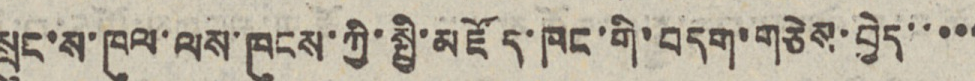སྲུང་ས་ཁུལ་ལས་ཁུངས་ཀྱི་སྤྱི་མཛོད་ཁང་གི་བདག་གཅེས་བྱེད་་་་་
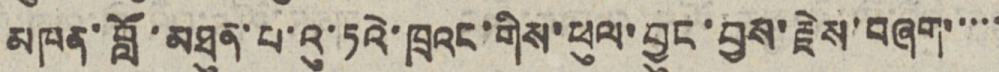མཁན་བློ་མཐུན་པ་འུ་ཏའི་ཁྲའང་གིས་ཕུལ་བྱུང་བྱས་རྗེས་བཞག་་་་་
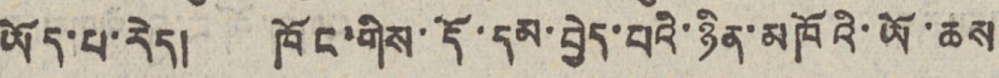ཡོད་པ་རེད། ཁོང་གིས་དོ་དམ་བྱེད་པའི་ཉིན་མཁོའི་ཡོ་ཆས
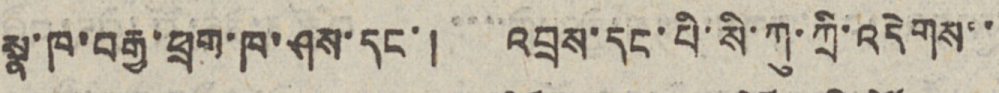སྣ་ཁ་བརྒྱ་ཕྲག་ཁ་ཤས་དང་། འབྲས་དང་པི་སི་ཀུ་ཀྲི་འདེགས་་
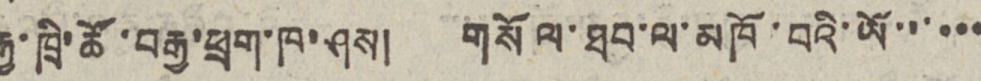རྒྱ་ཁྲི་ཚོ་བརྒྱ་ཕྲག་ཁ་ཤས། གསོལ་ཐབ་ལ་མཁོ་བའི་ཡོ་་་་་་
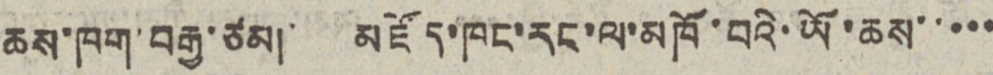ཆས་ཁག་བརྒྱ་ཙམ། མཛོད་ཁང་རང་ལ་མཁོ་བའི་ཡོ་ཆས་་་་་་
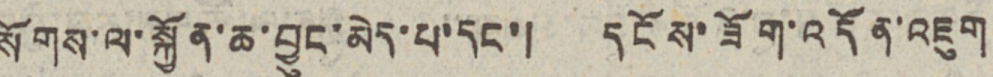སོགས་ལ་སྐྱོན་ཆ་བྱུང་མེད་པ་དང་། དངོས་ཟོག་འདོན་འཇུག
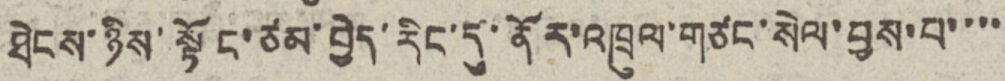ཐེངས་ཉིས་སྟོང་ཙམ་བྱེད་རིང་དུ་ནོར་འཁྲུལ་གཙང་སེལ་བྱས་པ་་་་
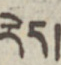རེད།
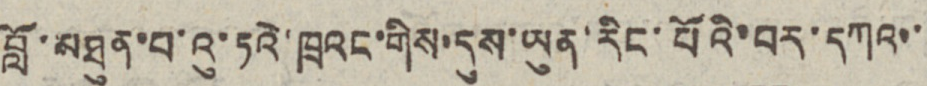བློ་མཐུན་པ་འུ་ཏའེ་ཁྲའང་གིས་དུས་ཡུན་རིང་པོའི་བར་དཀའ་་
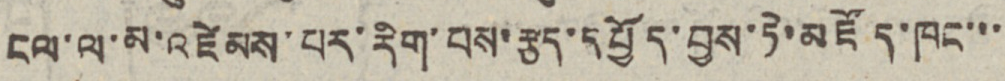ངལ་ལ་མ་འཛེམས་པར་རིག་བས་རྩད་དཔྱོད་བྱས་ཏེ་མཛོད་ཁང་་་
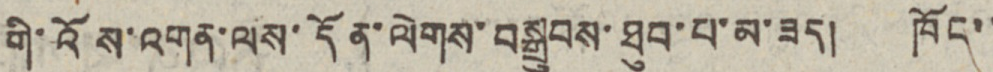གི་འོས་འགན་ལས་དོན་ལེགས་བསྒྲུབས་ཐུབ་པ་མ་ཟད། ཁོང་་
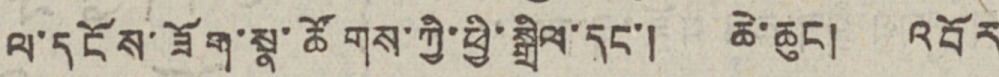ལ་དངོས་ཟོག་སྣ་ཚོགས་ཀྱི་ཕྱི་སྒྲིལ་དང་། ཆེ་ཆུང། འབོར
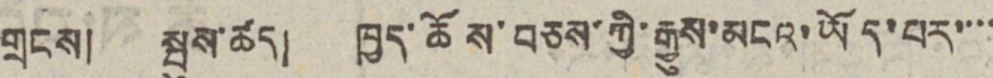གྲངས། སྤུས་ཚད། ཁྱད་ཆོས་བཅས་ཀྱི་རྒྱུས་མངའ་ཡོད་པར་་་་
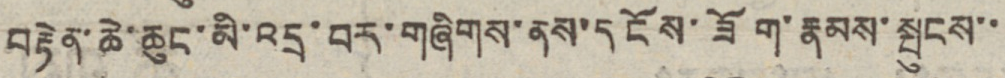བརྟེན་ཆེ་ཆུང་མི་འདྲ་བར་གཞིགས་ནས་དངོས་ཟོག་རྣམས་སྤུངས་་
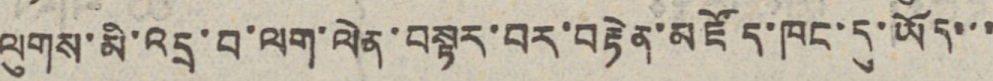ལུགས་མི་འདྲ་བ་ལག་ལེན་བསྟར་བར་བརྟེན་མཛོད་ཁག་དུ་ཡོད་་་
